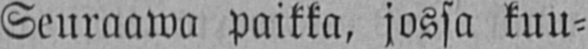Seuraawa paikka, jossa kuu-
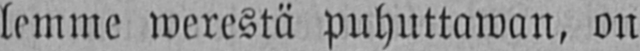lemme werestä puhuttawan, on
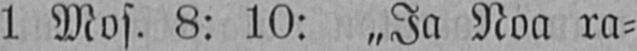1 Mos. 8: 10: „Ja Noa ra-
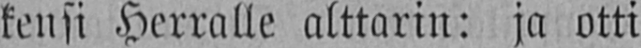kensi Herralle alttarin: ja otti
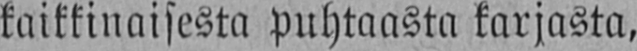kaikkinaisesta puhtaasta karjasta,
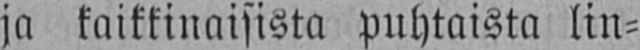ja kaikkinaisista puhtaista lin-
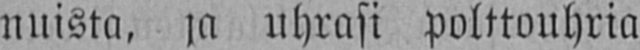nuista, ja uhrasi polttouhria
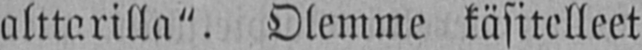alttarilla". Olemme käsitelleet
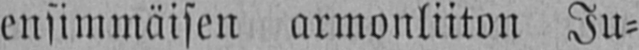ensimmäisen armonliiton Ju-
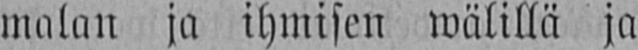malan ja ihmisen wälillä ja
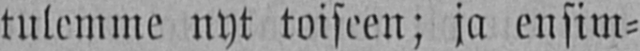tulemme nyt toiseen; ja ensim-
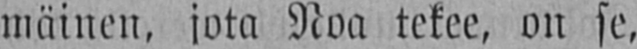mäinen, jota Noa tekee, on se,
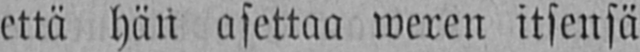että hän asettaa weren itsensä
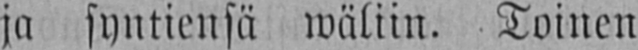ja syntiensä wäliin. Toinen
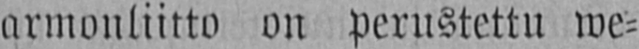armonliitto on perustettu we-
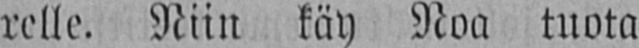relle. Niin käy Noa tuota
